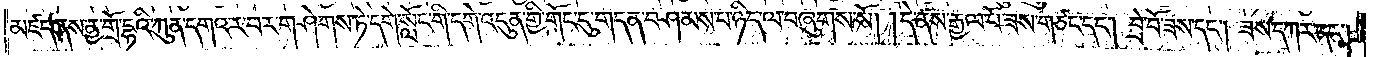མཛད་ནས་ནྱ་གྲོ་དྷའི་ཀུན་དགའ་ར་བར་གཤེགས་ཏེ་དགེ་སློང་གི་དགེ་འདུན་གྱི་གོང་དུ་གདན་བཤམས་པ་ཉིད་ལ་བཞུགས་སོ། །དེ་ནས་རྒྱལ་པོ་ཟས་གཙང་དང༌། བྲེ་བོ་ཟས་དང༌། ཟས་དཀར་དང༌།
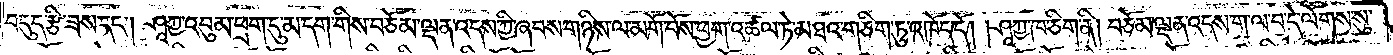བདུད་རྩི་ཟས་དང༌། ཤཱཀྱ་འབུམ་ཕྲག་དུ་མ་དག་གིས་བཅོམ་ལྡན་འདས་ཀྱི་ཞབས་གཉིས་ལ་མགོ་བོས་ཕྱག་འཚལ་ཏེ་མཐའ་གཅིག་ཏུ་འཁོད་དོ། །ཤཱཀྱ་ཁ་ཅིག་ནི། བཅོམ་ལྡན་འདས་ག་ལ་བ་དེ་ལོགས་སུ་
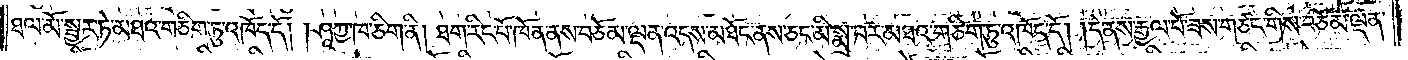ཐལ་མོ་སྦྱར་ཏེ་མཐའ་གཅིག་ཏུ་འཁོད་དོ། །ཤཱཀྱ་ཁ་ཅིག་ནི། ཐག་རིང་པོ་ཁོན་ནས་བཅོམ་ལྡན་འདས་མཐོང་ནས་ཅང་མི་སྨྲ་བར་མཐའ་གཅིག་ཏུ་འཁོད་དོ། །དེ་ནས་རྒྱལ་པོ་ཟས་གཙང་གིས་བཅོམ་ལྡན་
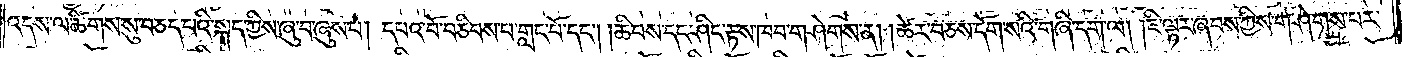འདས་ལ་ཚིགས་སུ་བཅད་པའི་སྐད་ཀྱིས་ཞུ་བ་ཞུས་པ། དཔའ་བོ་བཅིབས་པ་གླང་པོ་དང༌། །ཆིབས་དང་ཤིང་རྟས་ཁབ་གཤེགས་ན། །ཚེར་བཅས་དོག་སའི་གཞི་དག་ལ། །ཇི་ལྟར་ཞབས་ཀྱིས་གཤེགས་པར་
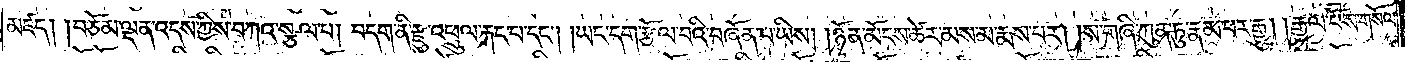མཛད། །བཅོམ་ལྡན་འདས་ཀྱིས་བཀའ་སྩལ་པ། བདག་ནི་རྫུ་འཕྲུལ་རྐང་པ་དང༌། །ཡང་དག་རྩོལ་བའི་བཞོན་པ་ཡིས། །ཉོན་མོངས་ཚེར་མས་མ་རྨས་པར། །ས་གཞི་ཀུན་ཏུ་རྣམ་པར་རྒྱུ། །རྒྱལ་པོས་གསོལ་
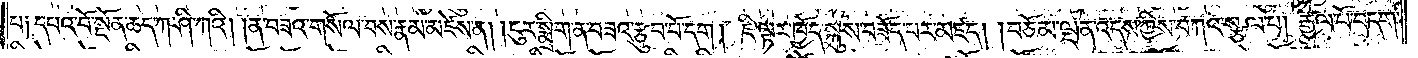པ༑  དཔའ་བོ་སྔོན་ཆད་ཀ་ཤི་ཀའི། །ན་བཟའ་གསོལ་བས་རྣམ་མཛེས་ན། །ངུར་སྨྲིག་ན་བཟའ་རྩུབ་པོ་དག། ཇི་ལྟར་ཁྱོད་སྐུས་བཟོད་པར་མཛད། །བཅོམ་ལྡན་འདས་ཀྱིས་བཀའ་སྩལ་པ། རྒྱལ་པོ་བདག་
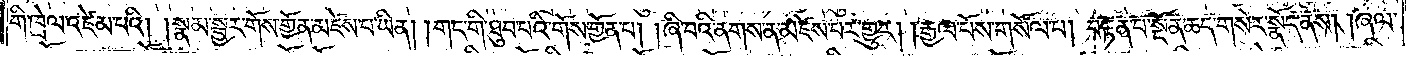གི་ཁྲེལ་འཛེམ་པའི། །སྣམ་སྦྱར་གོས་གྱོན་མཛེས་པ་ཡིན། །གང་གི་ཐུབ་པའི་གོས་གྱོན་པ། །ཞི་བའི་ནགས་ན་མཛེས་པར་གྱུར། །རྒྱལ་པོས་གསོལ་པ། བརྟན་པ་སྔོན་ཆད་གསེར་སྣོད་ནས། །ཞལ་
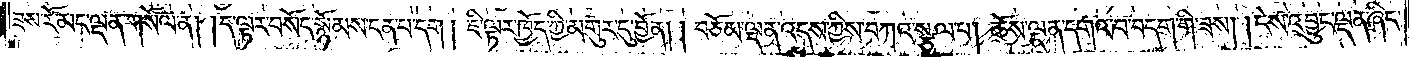ཟས་རོ་མང་ལྡན་གསོལ་ན། །དེ་ལྟར་བསོད་སྙོམས་ངན་པ་དག ། ཇི་ལྟར་ཁྱོད་ཀྱི་མགུར་དུ་བྱོན། །བཅོམ་ལྡན་འདས་ཀྱིས་བཀའ་སྩལ་པ། ཆོས་ལྡན་དགའ་བ་བདག་གི་ཟས། །ངེས་འབྱུང་ལྡན་ཞིང་
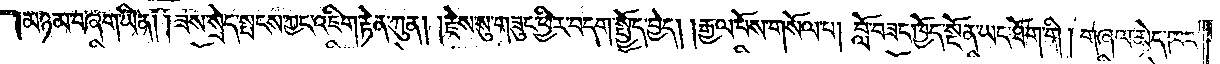མཉམ་བཞག་ཡིན། །ཟས་སྲེད་སྤངས་ཀྱང་འཇིག་རྟེན་ཀུན། །རྗེས་སུ་གཟུང་ཕྱིར་བདག་སྤྱོད་བྱེད། །རྒྱལ་པོས་གསོལ་པ། བློ་བཟང་ཁྱོད་སྔོན་ཡང་ཐོག་གི ། གཞལ་མེད་ཁང་
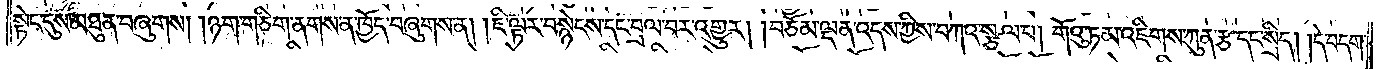སྟེང་དུས་མཐུན་བཞུགས། །ཉག་གཅིག་ནགས་ན་ཁྱོད་བཞུགས་ན། །ཇི་ལྟར་བསྙེངས་དང་བྲལ་བར་འགྱུར། །བཅོམ་ལྡན་འདས་ཀྱིས་བཀའ་སྩལ་པ། གོའུ་ཏམ་འཇིགས་ཀུན་རྩ་དང་སྲིད། །དེ་བདག་
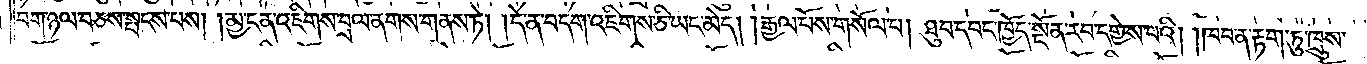བག་ཉལ་བཅས་སྤངས་པས། །མྱ་ངན་འཇིགས་བྲལ་ནགས་གནས་ཏེ། །དེ་ན་བདག་འཇིགས་ཅི་ཡང་མེད། །རྒྱལ་པོས་གསོལ་པ། ཐུབ་དབང་ཁྱོད་སྔོན་རབ་དགྱེས་པའི། །ཁབ་ན་རྟག་ཏུ་ཁྲུས་
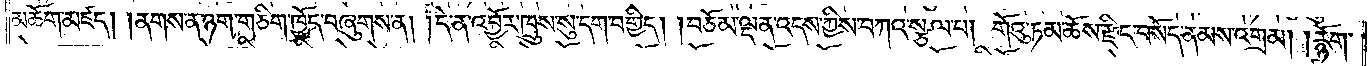མཆོག་མཛད། །ནགས་ན་ཉག་གཅིག་ཁྱོད་བཞུགས་ན། །དེ་ན་འབྱོར་ཁྲུས་སུ་དག་བགྱིད། །བཅོམ་ལྡན་འདས་ཀྱིས་བཀའ་སྩལ་པ། གོའུ་ཏམ་ཆོས་རྫིང་བསོད་ནམས་འགྲམ། །རྙོག་
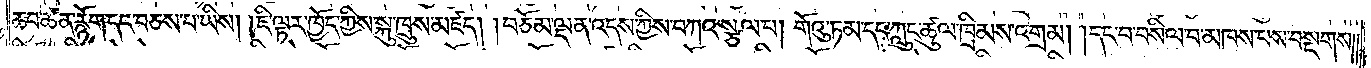ཆབ་ཚན་རྙོག་དང་བཅས་པ་ཡིས། །ཇི་ལྟར་ཁྱོད་ཀྱིས་སྐུ་ཁྲུས་མཛད། །བཅོམ་ལྡན་འདས་ཀྱིས་བཀའ་སྩལ་པ། གོའུ་ཏམ་དང་ཀླུང་ཚུལ་ཁྲིམས་འགྲམ། །དང་བ་བསིལ་བ་མཁས་པས་བསྔགས༎
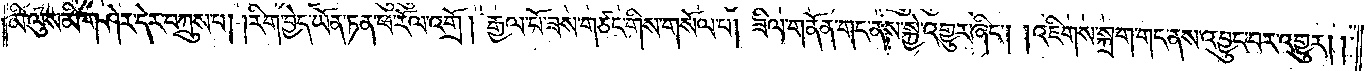མི་ལུས་མི་གཤེར་དེར་བཀྲུས་པ། །རིག་བྱེད་ཡོན་ཏན་ཕ་རོལ་འགྲོ། རྒྱལ་པོ་ཟས་གཙང་གིས་གསོལ་པ། ཟིལ་གནོན་གང་ནས་སྐྱེ་འགྱུར་ཞིང༌། །འཇིགས་སྐྲག་གང་ནས་འབྱུང་བར་འགྱུར། །
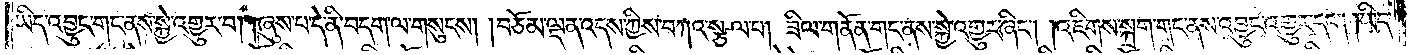ཡིད་འབྱུང་གང་ནས་སྐྱེ་འགྱུར་བ། །ཞུས་པ་དེ་ནི་བདག་ལ་གསུངས། །བཅོམ་ལྡན་འདས་ཀྱིས་བཀའ་སྩལ་པ། ཟིལ་གནོན་གང་ནས་སྐྱེ་འགྱུར་ཞིང༌། །འཇིགས་སྐྲག་གང་ནས་འབྱུང་འགྱུར་དང༌། །ཡིད་
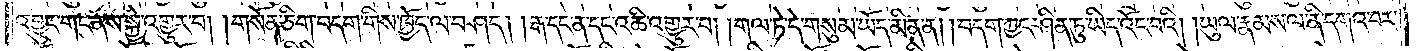འབྱུང་གང་ནས་སྐྱེ་འགྱུར་བ། །གསོན་ཅིག་བདག་གིས་ཁྱོད་ལ་བཤད། །རྒ་དང་ན་དང་འཆི་འགྱུར་བ། །གལ་ཏེ་དེ་གསུམ་ཡོད་མིན་ན། །བདག་ཀྱང་ཤིན་ཏུ་ཡིད་འོང་བའི། །ཡུལ་རྣམས་ལ་ནི་དགའ་བར་
